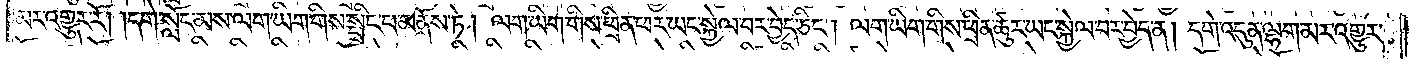མར་འགྱུར་རོ། །དགེ་སློང་མས་ལག་ཡིག་གིས་སྤྲིང་པ་མནོས་ཏེ། ལག་ཡིག་གིས་ཕྲིན་ཕར་ཡང་སྐྱེལ་བར་བྱེད་ཅིང༌། ལག་ཡིག་གིས་ཕྲིན་ཚུར་ཡང་སྐྱེལ་བར་བྱེད་ན། དགེ་འདུན་ལྷག་མར་འགྱུར་
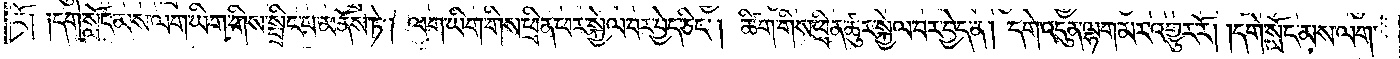རོ། །དགེ་སློང་མས་ལག་ཡིག་གིས་སྤྲིང་པ་མནོས་ཏེ། ལག་ཡིག་གིས་ཕྲིན་ཕར་སྐྱེལ་བར་བྱེད་ཅིང༌། ཚིག་གིས་ཕྲིན་ཚུར་སྐྱེལ་བར་བྱེད་ན། དགེ་འདུན་ལྷག་མར་འགྱུར་རོ། །དགེ་སློང་མས་ལག་
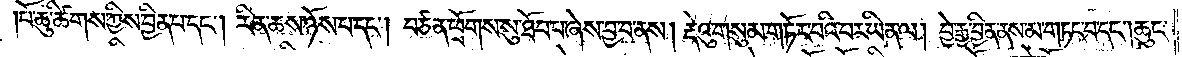པོ་ཆུ་ཚིགས་ཀྱི་བྱིན་པ་དང༌། རིན་ཆས་ཉོས་པ་དང༌། བཙན་ཕྲོགས་སུ་ཐོབ་པ་ཞེས་བྱ་བ་ནས། རྡེའུ་གསུམ་གཏོར་བའི་བར་ཡིན་ལ། བྱེ་རྒྱ་བྱིན་ནས་མ་གཏང་བ་དང༌། ཆུང་
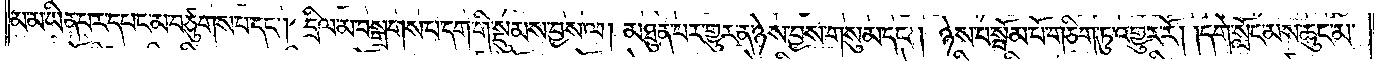མ་མ་ཡིན་པར་དཔང་མ་བཙུགས་པ་དང༌། དྲིལ་མ་བསྒྲགས་པ་དག་གི་སྡུམས་བྱས་ལ། མཐུན་པར་གྱུར་ན་ཉེས་བྱས་གསུམ་དང༌། ཉེས་པ་སྦོམ་པོ་གཅིག་ཏུ་འགྱུར་རོ། །དགེ་སློང་མས་ཆུང་མ་
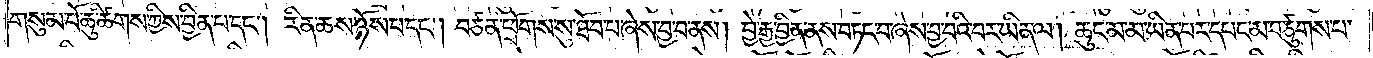གསུམ་པོ་ཆུ་ཚིགས་ཀྱིས་བྱིན་པ་དང༌། རིན་ཆས་ཉོས་པ་དང༌། བཙན་ཕྲོགས་སུ་ཐོབ་པ་ཞེས་བྱ་བ་ནས། བྱེ་རྒྱ་བྱིན་ནས་བཏང་བ་ཞེས་བྱ་བའི་བར་ཡིན་ལ། ཆུང་མ་མ་ཡིན་པར་དཔང་མ་བཙུགས་པ་
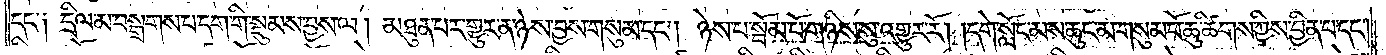དང༌། དྲིལ་མ་བསྒྲགས་པ་དག་གི་སྡུམས་བྱས་ལ། མཐུན་པར་གྱུར་ན་ཉེས་བྱས་གསུམ་དང༌། ཉེས་པ་སྦོམ་པོ་གཉིས་སུ་འགྱུར་རོ། །དགེ་སློང་མས་ཆུང་མ་གསུམ་པོ་ཆུ་ཚིགས་ཀྱིས་བྱིན་པ་དང༌།
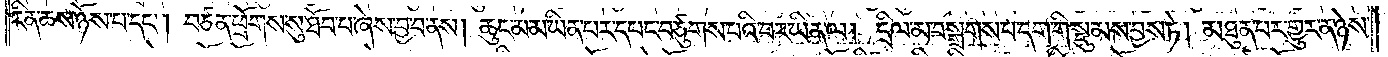རིན་ཆས་ཉོས་པ་དང༌། བཙན་ཕྲོགས་སུ་ཐོབ་པ་ཞེས་བྱ་བ་ནས། ཆུང་མ་མ་ཡིན་པར་དཔང་བཙུགས་པའི་བར་ཡིན་ལ། དྲིལ་མ་བསྒྲགས་པ་དག་གིས་སྡུམས་བྱས་ཏེ། མཐུན་པར་གྱུར་ན་ཉེས་
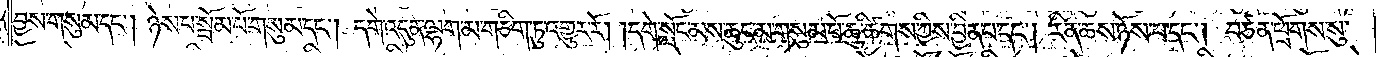བྱས་གསུམ་དང༌། ཉེས་པ་སྦོམ་པོ་གསུམ་དང༌། དགེ་འདུན་ལྷག་མ་གཅིག་ཏུ་འགྱུར་རོ། །དགེ་སློང་མས་ཆུང་མ་གསུམ་པོ་ཆུ་ཚིགས་ཀྱིས་བྱིན་པ་དང༌། རིན་ཆས་ཉོས་པ་དང༌། བཙན་ཕྲོགས་སུ་
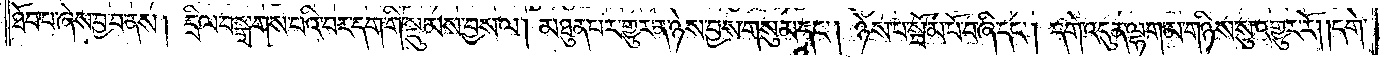ཐོབ་པ་ཞེས་བྱ་བ་ནས། དྲིལ་བསྒྲགས་པའི་བར་དག་གི་སྡུམས་བྱས་ལ། མཐུན་པར་གྱུར་ན་ཉེས་བྱས་གསུམ་དང༌། ཉེས་པ་སྦོམ་པོ་བཞི་དང༌། དགེ་འདུན་ལྷག་མ་གཉིས་སུ་འགྱུར་རོ། །དགེ་
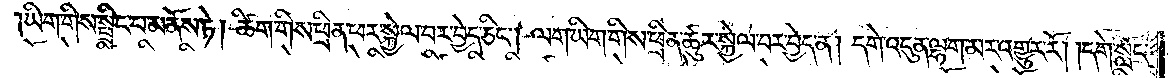ཡིག་གིས་སྤྲིང་པ་མནོས་ཏེ། ཚིག་གིས་ཕྲིན་ཕར་སྐྱེལ་བར་བྱེད་ཅིང༌། ལག་ཡིག་གིས་ཕྲིན་ཚུར་སྐྱེལ་བར་བྱེད་ན། དགེ་འདུན་ལྷག་མར་འགྱུར་རོ། །དགེ་སློང་
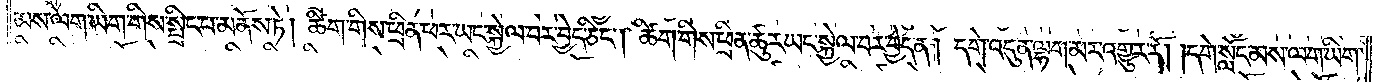མས་ལག་ཡིག་གིས་སྤྲིང་པ་མནོས་ཏེ། ཚིག་གིས་ཕྲིན་ཕར་ཡང་སྐྱེལ་བར་བྱེད་ཅིང༌། ཚིག་གིས་ཕྲིན་ཚུར་ཡང་སྐྱེལ་བར་བྱེད་ན། དགེ་འདུན་ལྷག་མར་འགྱུར་རོ། །དགེ་སློང་མས་ལག་ཡིག་
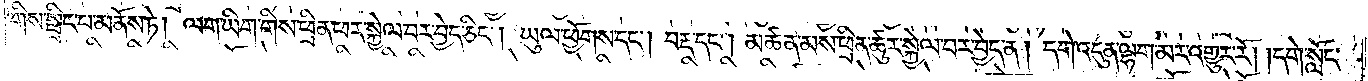གིས་སྤྲིང་པ་མནོས་ཏེ། ལག་ཡིག་གིས་ཕྲིན་ཕར་སྐྱེལ་བར་བྱེད་ཅིང༌། ཡུལ་ཕྱོགས་དང༌། བརྡ་དང༌། མཚན་མས་ཕྲིན་ཚུར་སྐྱེལ་བར་བྱེད་ན། དགེ་འདུན་ལྷག་མར་འགྱུར་རོ། །དགེ་སློང་
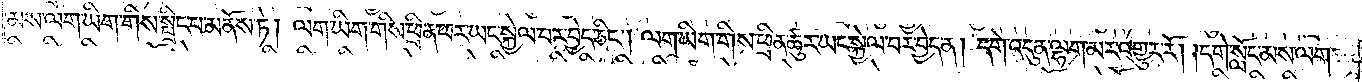མས་ལག་ཡིག་གིས་སྤྲིང་པ་མནོས་ཏེ། ལག་ཡིག་གིས་ཕྲིན་ཕར་ཡང་སྐྱེལ་བར་བྱེད་ཅིང༌། ལག་ཡིག་གིས་ཕྲིན་ཚུར་ཡང་སྐྱེལ་བར་བྱེད་ན། དགེ་འདུན་ལྷག་མར་འགྱུར་རོ། །དགེ་སློང་མས་ལག་
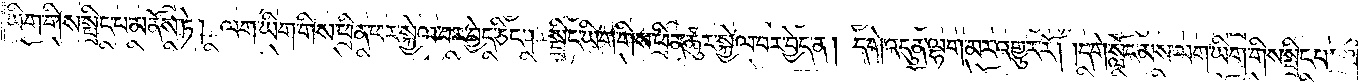ཡིག་གིས་སྤྲིང་པ་མནོས་ཏེ། ལག་ཡིག་གིས་ཕྲིན་ཕར་སྐྱེལ་བར་བྱེད་ཅིང༌། སྤྲིང་ཡིག་གིས་ཕྲིན་ཚུར་སྐྱེལ་བར་བྱེད་ན། དགེ་འདུན་ལྷག་མར་འགྱུར་རོ། །དགེ་སློང་མས་ལག་ཡིག་གིས་སྤྲིང་པ་
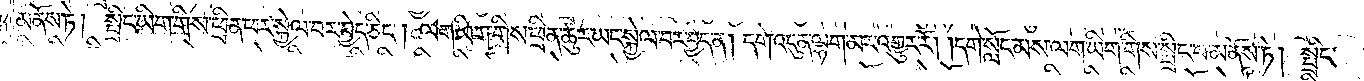མནོས་ཏེ། སྤྲིང་ཡིག་གིས་ཕྲིན་ཕར་སྐྱེལ་བར་བྱེད་ཅིང༌། ལག་ཡིག་གིས་ཕྲིན་ཚུར་ཡང་སྐྱེལ་བར་བྱེད་ན། དགེ་འདུན་ལྷག་མར་འགྱུར་རོ། །དགེ་སློང་མས་ལག་ཡིག་གིས་སྤྲིང་པ་མནོས་ཏེ། སྤྲིང་
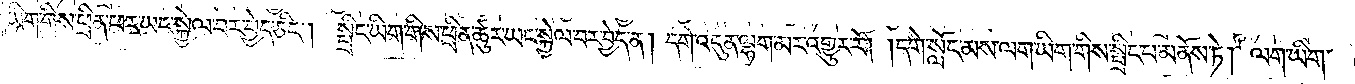ཡིག་གིས་ཕྲིན་ཕར་ཡང་སྐྱེལ་བར་བྱེད་ཅིང༌། སྤྲིང་ཡིག་གིས་ཕྲིན་ཚུར་ཡང་སྐྱེལ་བར་བྱེད་ན། དགེ་འདུན་ལྷག་མར་འགྱུར་རོ། །དགེ་སློང་མས་ལག་ཡིག་གིས་སྤྲིང་པ་མནོས་ཏེ། ལག་ཡིག་
